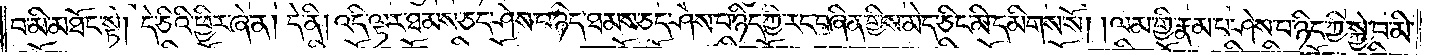བ་མི་མཐོང་སྟེ། དེ་ཅིའི་ཕྱིར་ཞེ་ན། དེ་ནི། འདི་ལྟར་ཐམས་ཅད་ཤེས་པ་ཉིད་ཐམས་ཅད་ཤེས་པ་ཉིད་ཀྱི་རང་བཞིན་གྱིས་མེད་ཅིང་མི་དམིགས་སོ། །ལམ་གྱི་རྣམ་པ་ཤེས་པ་ཉིད་ཀྱི་སྐྱེ་བ་མི་
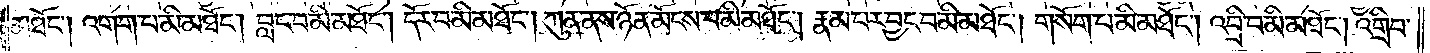མཐོང༌། འགག་པ་མི་མཐོང༌། བླང་བ་མི་མཐོང༌། དོར་བ་མི་མཐོང༌། ཀུན་ནས་ཉོན་མོངས་པ་མི་མཐོང༌། རྣམ་པར་བྱང་བ་མི་མཐོང༌། གསོག་པ་མི་མཐོང༌། འབྲི་བ་མི་མཐོང༌། འགྲིབ་
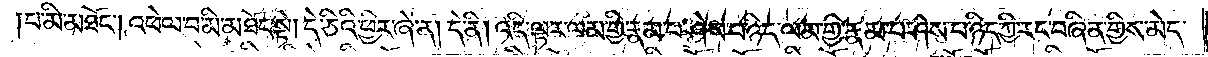པ་མི་མཐོང༌། འཕེལ་བ་མི་མཐོང་སྟེ། དེ་ཅིའི་ཕྱིར་ཞེ་ན། དེ་ནི། འདི་ལྟར་ལམ་གྱི་རྣམ་པ་ཤེས་པ་ཉིད་ལམ་གྱི་རྣམ་པ་ཤེས་པ་ཉིད་ཀྱི་རང་བཞིན་གྱིས་མེད་
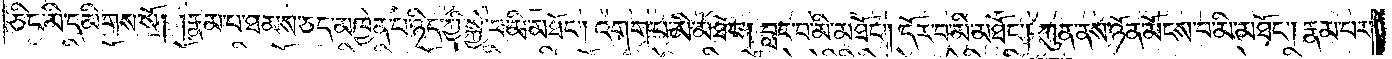ཅིང་མི་དམིགས་སོ། །རྣམ་པ་ཐམས་ཅད་མཁྱེན་པ་ཉིད་ཀྱི་སྐྱེ་བ་མི་མཐོང༌། འགག་པ་མི་མཐོང༌། བླང་བ་མི་མཐོང༌། དོར་བ་མི་མཐོང༌། ཀུན་ནས་ཉོན་མོངས་པ་མི་མཐོང༌། རྣམ་པར་
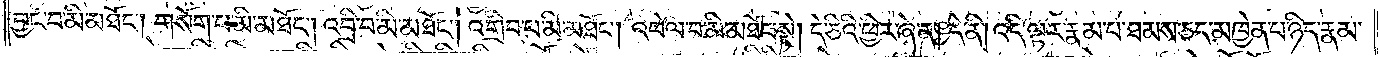བྱང་བ་མི་མཐོང༌། གསོག་པ་མི་མཐོང༌། །འབྲི་བ་མི་མཐོང༌། འགྲིབ་པ་མི་མཐོང༌། འཕེལ་བ་མི་མཐོང་སྟེ། དེ་ཅིའི་ཕྱིར་ཞེ་ན། དེ་ནི། འདི་ལྟར་རྣམ་པ་ཐམས་ཅད་མཁྱེན་པ་ཉིད་རྣམ་
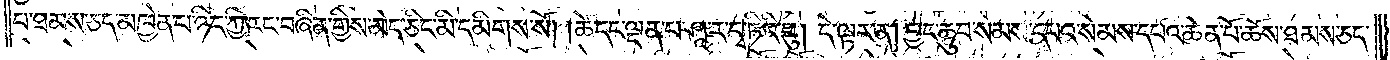པ་ཐམས་ཅད་མཁྱེན་པ་ཉིད་ཀྱི་རང་བཞིན་གྱིས་མེད་ཅིང་མི་དམིགས་སོ། །ཚེ་དང་ལྡན་པ་ཤཱ་ར་དྭ་ཏིའི་བུ། དེ་ལྟར་ན། བྱང་ཆུབ་སེམས་དཔའ་སེམས་དཔའ་ཆེན་པོ་ཆོས་ཐམས་ཅད་
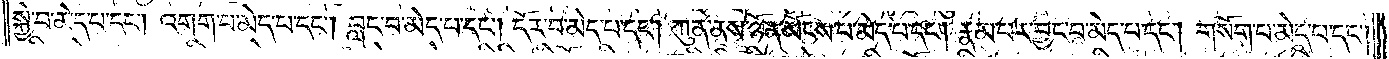སྐྱེ་བ་མེད་པ་དང༌། འགག་པ་མེད་པ་དང༌། བླང་བ་མེད་པ་དང༌། དོར་བ་མེད་པ་དང༌། ཀུན་ནས་ཉོན་མོངས་པ་མེད་པ་དང༌། རྣམ་པར་བྱང་བ་མེད་པ་དང༌། གསོག་པ་མེད་པ་དང༌།
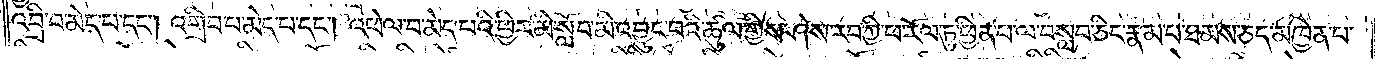འབྲི་བ་མེད་པ་དང༌། འགྲིབ་པ་མེད་པ་དང༌། འཕེལ་བ་མེད་པའི་ཕྱིར་མི་སློབ་མི་འབྱུང་བའི་ཚུལ་གྱིས་ཤེས་རབ་ཀྱི་ཕ་རོལ་ཏུ་ཕྱིན་པ་ལ་བསླབ་ཅིང་རྣམ་པ་ཐམས་ཅད་མཁྱེན་པ་
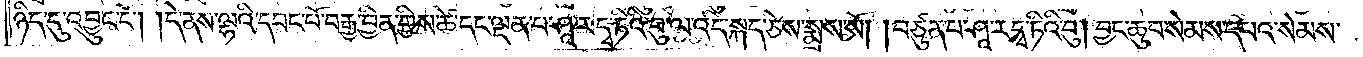ཉིད་དུ་འབྱུང་ངོ༌། །དེ་ནས་ལྷའི་དབང་པོ་བརྒྱ་བྱིན་གྱིས་ཚེ་དང་ལྡན་པ་ཤཱ་ར་དྭ་ཏིའི་བུ་ལ་འདི་སྐད་ཅེས་སྨྲས་སོ། །བཙུན་པ་ཤཱ་ར་དྭ་ཏིའི་བུ། བྱང་ཆུབ་སེམས་དཔའ་སེམས་
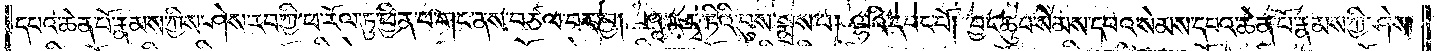དཔའ་ཆེན་པོ་རྣམས་ཀྱིས་ཤེས་རབ་ཀྱི་ཕ་རོལ་ཏུ་ཕྱིན་པ་གང་ནས་བཙལ་བར་བྱ། ཤཱ་ར་དྭ་ཏིའི་བུས་སྨྲས་པ། ལྷའི་དབང་པོ། བྱང་ཆུབ་སེམས་དཔའ་སེམས་དཔའ་ཆེན་པོ་རྣམས་ཀྱི་ཤེས་
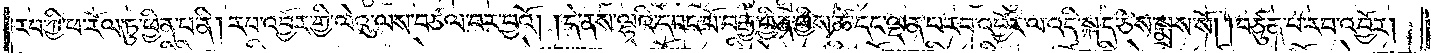རབ་ཀྱི་ཕ་རོལ་ཏུ་ཕྱིན་པ་ནི། རབ་འབྱོར་གྱི་ལེའུ་ལས་བཙལ་བར་བྱའོ། །དེ་ནས་ལྷའི་དབང་པོ་བརྒྱ་བྱིན་གྱིས་ཚེ་དང་ལྡན་པ་རབ་འབྱོར་ལ་འདི་སྐད་ཅེས་སྨྲས་སོ། །བཙུན་པ་རབ་འབྱོར།
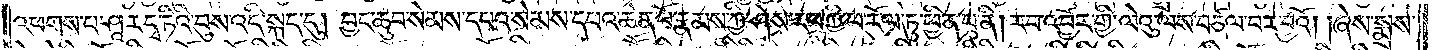འཕགས་པ་ཤཱ་ར་དྭ་ཏིའི་བུས་འདི་སྐད་དུ། བྱང་ཆུབ་སེམས་དཔའ་སེམས་དཔའ་ཆེན་པོ་རྣམས་ཀྱི་ཤེས་རབ་ཀྱི་ཕ་རོལ་ཏུ་ཕྱིན་པ་ནི། རབ་འབྱོར་གྱི་ལེའུ་ལས་བཙལ་བར་བྱའོ། ཞེས་སྨྲས་
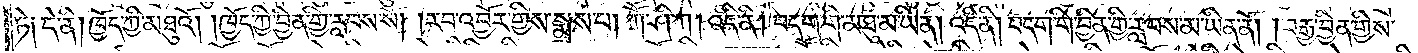ཏེ༏ དེ་ནི། ཁྱོད་ཀྱི་མཐུའོ། །ཁྱོད་ཀྱི་བྱིན་གྱི་རླབས་སོ། །རབ་འབྱོར་གྱིས་སྨྲས་པ། ཀཽ་ཤི་ཀ །འདི་ནི། བདག་གི་མཐུ་མ་ཡིན། འདི་ནི། བདག་གི་བྱིན་གྱི་རླབས་མ་ཡིན་ནོ། །བརྒྱ་བྱིན་གྱིས་
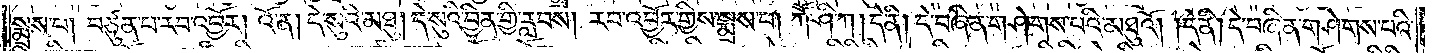སྨྲས་པ། བཙུན་པ་རབ་འབྱོར། འོ་ན། དེ་སུའི་མཐུ། དེ་སུའི་བྱིན་གྱི་རླབས། རབ་འབྱོར་གྱིས་སྨྲས་པ། ཀཽ་ཤི་ཀ། དེ་ནི། དེ་བཞིན་གཤེགས་པའི་མཐུའོ། །དེ་ནི། དེ་བཞིན་གཤེགས་པའི་
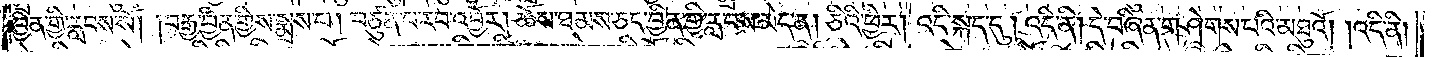བྱིན་གྱི་རླབས་སོ། །བརྒྱ་བྱིན་གྱིས་སྨྲས་པ། བཙུན་པ་རབ་འབྱོར། ཆོས་ཐམས་ཅད་བྱིན་གྱི་རླབས་མེད་ན། ཅིའི་ཕྱིར། འདི་སྐད་དུ། འདི་ནི། དེ་བཞིན་གཤེགས་པའི་མཐུའོ། །འདི་ནི།
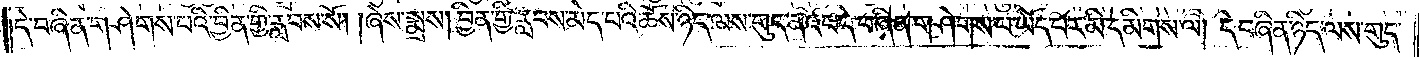དེ་བཞིན་གཤེགས་པའི་བྱིན་གྱི་རླབས་སོ། །ཞེས་སྨྲས། བྱིན་གྱི་རླབས་མེད་པའི་ཆོས་ཉིད་ལས་གུད་ནའང་དེ་བཞིན་གཤེགས་པ་ཡོད་པར་མི་དམིགས་ལ། དེ་བཞིན་ཉིད་ལས་གུད་
